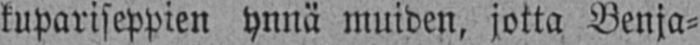kupariseppien ynnä muiden, jotta Benja-
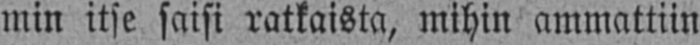min itse saisi ratkaista, mihin ammattiin
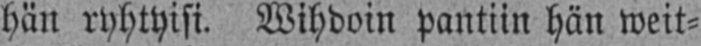hän ryhtyisi. Wihdoin pantiin hän weit-
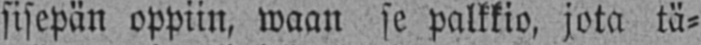sisepän oppiin, waan se palkkio, jota tä-
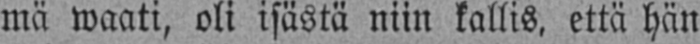mä waati, oli isästä niin kallis, että hän
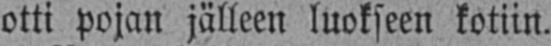otti pojan jälleen luokseen kotiin.
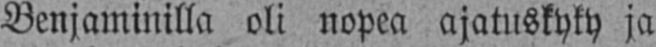Benjaminilla oli nopea ajatuskyky ja
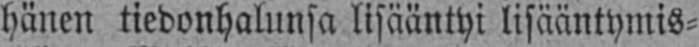hänen tiedonhalunsa lisääntyi lisääntymis-
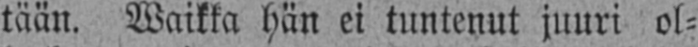tään. Waikka hän ei tuntenut juuri ol-
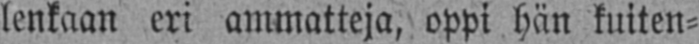lenkaan eri ammatteja, oppi hän kuiten-
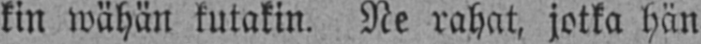kin wähän kutakin. Ne rahat, jotka hän
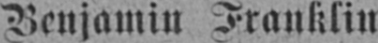Benjamin Franklin
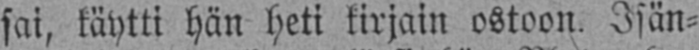sai, käytti hän heti kirjain ostoon. Isän-
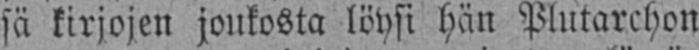sä kirjojen joukosta löysi hän Plutarchon
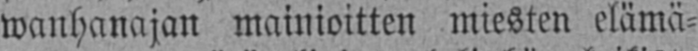wanhanajan mainioitten miesten elämä-
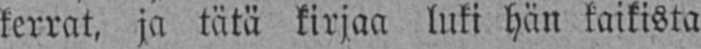kerrat, ja tätä kirjaa luki hän kaikista
